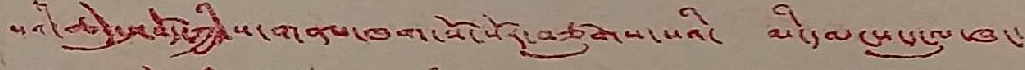པའི་ཆེད་དུ་བོད་ཀྱི་ས་གནས་ཁག་སོ་སོར་བཙུགས་པའི་ མི་དམངས་དངུལ་ཁང་
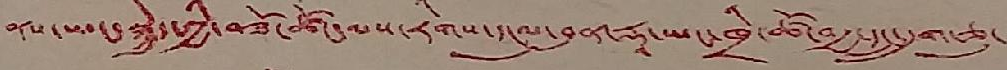ནས་ཡང་སྐྱེད་ཀྱི་བཟོ་ཚོང་ལས་རིགས་དངུལ་བུན་རྡཱ་ཡང་ཁྲི་ཚོ་བརྒྱ་དང་དྲུག་ཅུ་
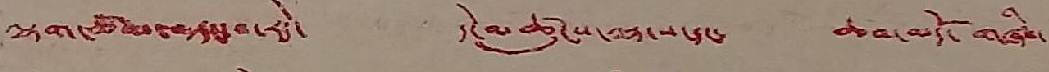ལྷག་ཙམ་བཏང་པ་རེད་ དེ་མཚུངས་ལྷ་ས་དང་ ཆབ་མདོ་ གཞིས་
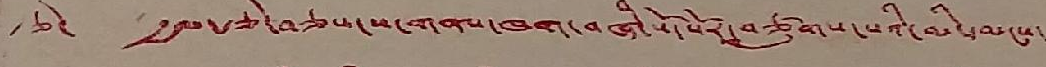རྩེ་ རྒྱལ་རྩེ་བཅས་ས་གནས་ཁག་བཞི་སོ་སོར་བཙུགས་པའི་མི་དམངས་
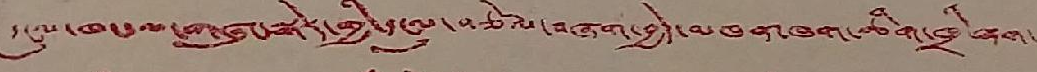དངུལ་ཁང་ལ་གཞུང་སྒེར་གྱི་དངུལ་བཅོལ་བཞག་བྱེད་མཁན་ཁག་ཆིག་ཁྲི་ལྷག་
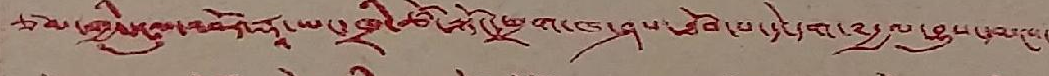ཙམ་གྱི་དངུལ་འབོར་རྡཱ་ཡང་ཁྲི་ཚོ་སྟོང་ཕྲག་ཁ་ཤས་ཐོབ་པ་དེ་དག་༸རྒྱལ་བྱུས་དམངས་
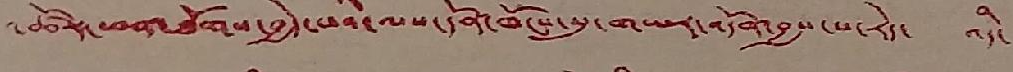འཚོར་ཕན་ཐོགས་བྱེད་པའི་ལས་དོན་ཁོང་སུ་གཡར་འདོན་བྱསཔ་རེད་ འདི་
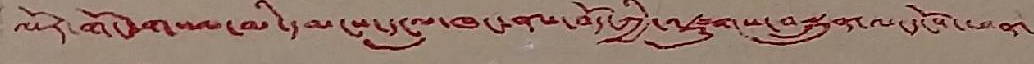ལོར་གོང་གསལ་མི་དམངས་དངུལ་ཁང་ནས་བོད་ཀྱི་འཛུགས་བསྐྲུན་ལ་དངོས་ཕན་
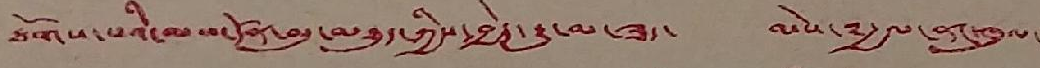ཐོགས་པའི་ལས་དོན་མུ་མཐུད་ཀྱིས་བྱེད་རྒྱུ་མ་ཟད་ མེས་༸རྒྱལ་ནང་ཁུལ་
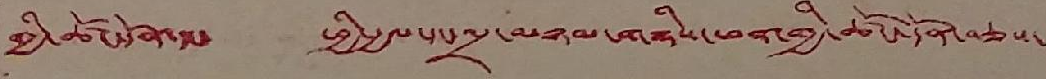གྱི་ཚོང་དོན་དང་ ཕྱི་རྒྱལ་དང་འདྲ་མཉམ་གཉིས་ཕན་གྱི་ཚོང་དོན་བཅས་
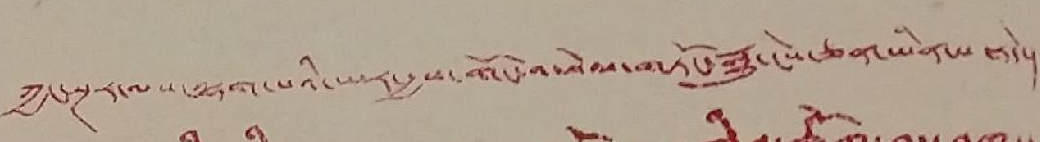ཀྱང་སྔར་ལས་ལྷག་པའི་ཡར་རྒྱས་གོང་འཕེལ་གཏོང་རྒྱུ་ངེས་ཅན་ཡིན་པ་རེད་།
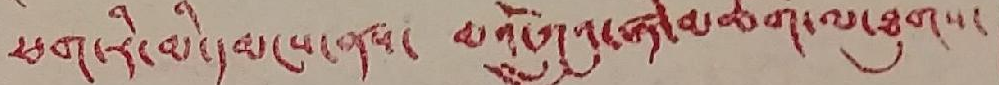ཕག་རི་མི་དམངས་ནས་ མའོ་ཀྲུའུ་ཞི་མཆོག་ལ་ཐུགས་
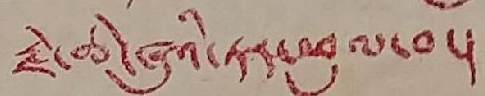རྗེ་ཆེ་ཞུའི་ཏར་ཕུལ་བ་།
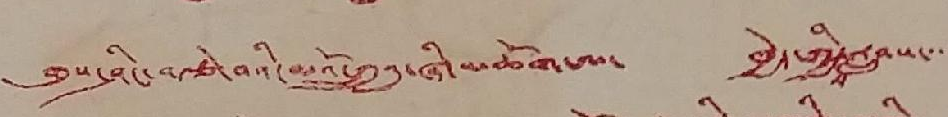གུས་ཤིང་བརྩེ་བའི་མའོ་ཀྲུའུ་ཞི་མཆོག་ལ་ ཁྱེད་ཀྱིས་རླབས་་་་
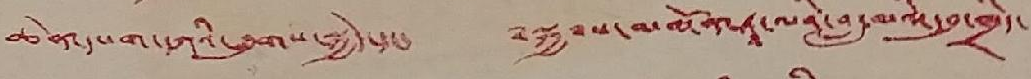ཆེན་དཔག་དཀའི་ཐུགས་སྐྱེད་དང་ ༸སྐྱབས་མགོན་ཏཱ་ལའི་བླ་མའི་དབུ་ཁྲིད་
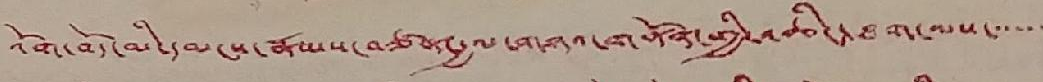འོག་བོད་མི་དམངས་རྣམས་བཙན་རྒྱལ་གཉའ་གནོན་གྱི་འཆིང་ཐག་ལས་་་་་་
